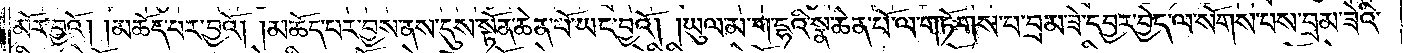མོར་བྱའོ། །མཆོད་པར་བྱའོ། །མཆོད་པར་བྱས་ནས་དུས་སྟོན་ཆེན་པོ་ཡང་བྱའོ། །ཡུལ་མ་ག་དྷའི་སྣ་ཆེན་པོ་ལ་གཏོགས་པ་བྲམ་ཟེ་དབྱར་བྱེད་ལ་སོགས་པས་བྲམ་ཟེའི་
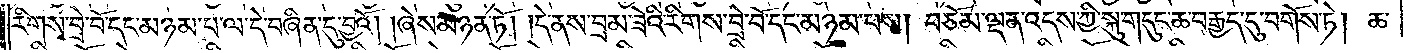རིགས་བྲེ་བོ་དང་མཉམ་པ་ལ་དེ་བཞིན་དུ་བྱའོ། །ཞེས་མཉན་ཏོ། །དེ་ནས་བྲམ་ཟེའི་རིགས་བྲེ་བོ་དང་མཉམ་པས། བཅོམ་ལྡན་འདས་ཀྱི་སྐུ་གདུང་ཆ་བརྒྱད་དུ་བགོས་ཏེ། ཆ་
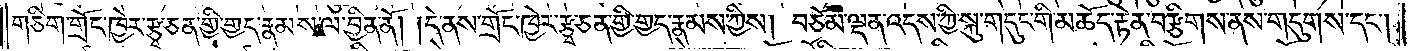གཅིག་གྲོང་ཁྱེར་རྩྭ་ཅན་གྱི་གྱད་རྣམས་ལ་བྱིན་ནོ། །དེ་ནས་གྲོང་ཁྱེར་རྩྭ་ཅན་གྱི་གྱད་རྣམས་ཀྱིས། བཅོམ་ལྡན་འདས་ཀྱི་སྐུ་གདུང་གི་མཆོད་རྟེན་བརྩིགས་ནས་གདུགས་དང༌།
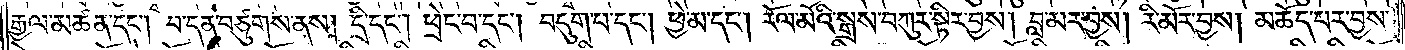རྒྱལ་མཚན་དང༌། བ་དན་བཙུགས་ནས། དྲི་དང༌། ཕྲེང་བ་དང༌། བདུག་པ་དང༌། ཕྱེ་མ་དང༌། རོལ་མོའི་སྒྲས་བཀུར་སྟིར་བྱས། བླ་མར་བྱས། རི་མོར་བྱས། མཆོད་པར་བྱས་
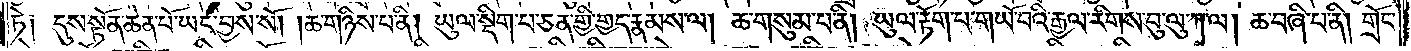ཏེ། དུས་སྟོན་ཆེན་པོ་ཡང་བྱས་སོ། །ཆ་གཉིས་པ་ནི། ཡུལ་སྡིག་པ་ཅན་གྱི་གྱད་རྣམས་ལ། ཆ་གསུམ་པ་ནི། ཡུལ་རྟོག་པ་གཡོ་བའི་རྒྱལ་རིགས་བུ་ལུ་ཀ་ལ། ཆ་བཞི་པ་ནི། གྲོང་
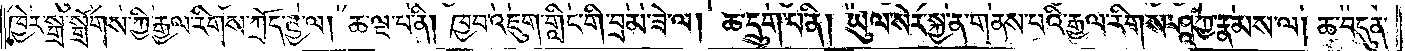ཁྱེར་སྒྲ་སྒྲོགས་ཀྱི་རྒྱལ་རིགས་ཀྲོད་ཊྱ་ལ། ཆ་ལྔ་པ་ནི། ཁྱབ་འཇུག་གླིང་གི་བྲམ་ཟེ་ལ། ཆ་དྲུག་པ་ནི། ཡུལ་སེར་སྐྱ་ན་གནས་པའི་རྒྱལ་རིགས་ཤཱཀྱ་རྣམས་ལ། ཆ་བདུན་
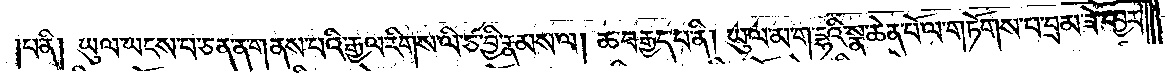།པ་ནི། ཡུལ་ཡངས་པ་ཅན་ན་གནས་པའི་རྒྱལ་རིགས་ལི་ཙ་བྱི་རྣམས་ལ། ཆ་བརྒྱད་པ་ནི། ཡུལ་མ་ག་དྷའི་སྣ་ཆེན་པོ་ལ་གཏོགས་པ་བྲམ་ཟེ་དབྱར་
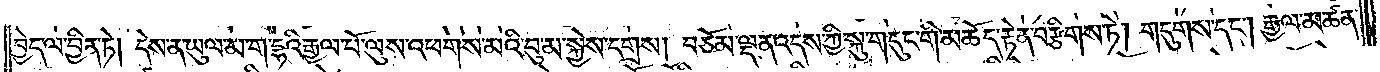བྱེད་ལ་བྱིན་ཏེ། དེས་ན་ཡུལ་མ་ག་དྷའི་རྒྱལ་པོ་ལུས་འཕགས་མའི་བུ་མ་སྐྱེས་དགྲས། བཅོམ་ལྡན་འདས་ཀྱི་སྐུ་གདུང་གི་མཆོད་རྟེན་བརྩིགས་ཏེ། གདུགས་དང༌། རྒྱལ་མཚན་
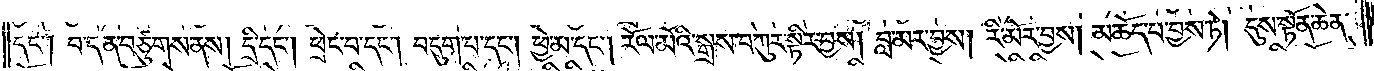དང༌། བ་དན་བཙུགས་ནས། དྲི་དང༌། ཕྲེང་བ་དང༌། བདུག་པ་དང༌། ཕྱེ་མ་དང༌། རོལ་མོའི་སྒྲས་བཀུར་སྟིར་བྱས། བླ་མར་བྱས། རི་མོར་བྱས། མཆོད་པ་བྱས་ཏེ། དུས་སྟོན་ཆེན་
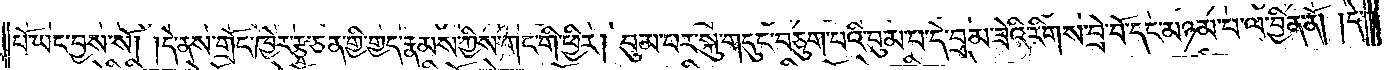པོ་ཡང་བྱས་སོ། །དེ་ནས་གྲོང་ཁྱེར་རྩྭ་ཅན་གྱི་གྱད་རྣམས་ཀྱིས་གང་གི་ཕྱིར། བུམ་པར་སྐུ་གདུང་བཅུག་པའི་བུམ་པ་དེ་བྲམ་ཟེའི་རིགས་བྲེ་བོ་དང་མཉམ་པ་ལ་བྱིན་ནོ། །དེ་
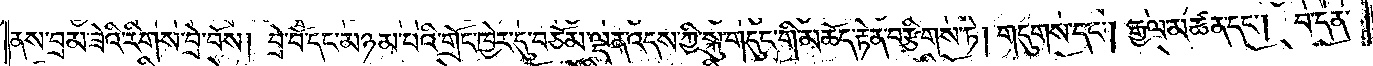ནས་བྲམ་ཟེའི་རིགས་བྲེ་བོས། བྲེ་བོ་དང་མཉམ་པའི་གྲོང་ཁྱེར་དུ་བཅོམ་ལྡན་འདས་ཀྱི་སྐུ་གདུང་གི་མཆོད་རྟེན་བརྩིགས་ཏེ། གདུགས་དང༌། རྒྱལ་མཚན་དང༌། བ་དན་
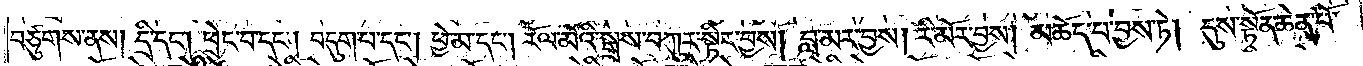བཙུགས་ནས། དྲི་དང༌། ཕྲེང་བ་དང༌། བདུག་པ་དང༌། ཕྱེ་མ་དང༌། རོལ་མོའི་སྒྲས་བཀུར་སྟིར་བྱས། བླ་མར་བྱས། རི་མོར་བྱས། མཆོད་པ་བྱས་ཏེ། དུས་སྟོན་ཆེན་པོ་
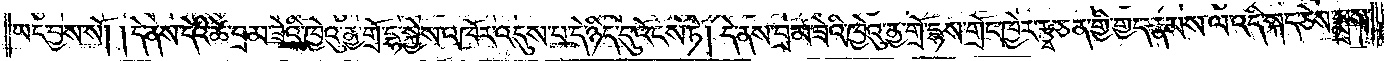ཡང་བྱས་སོ། །དེ་ནས་དེའི་ཚེ་བྲམ་ཟེའི་ཁྱེའུ་ནྱ་གྲོ་དྷ་སྐྱེས་འཁོར་འདུས་པ་དེ་ཉིད་དུ་འོངས་ཏེ། དེ་ནས་བྲམ་ཟེའི་ཁྱེའུ་ནྱ་གྲོ་དྷས་གྲོང་ཁྱེར་རྩྭ་ཅན་གྱི་གྱད་རྣམས་ལ་འདི་སྐད་ཅེས་སྨྲས་
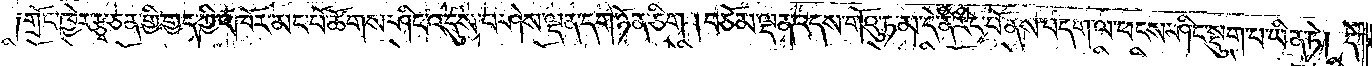གྲོང་ཁྱེར་རྩྭ་ཅན་གྱི་གྱད་ཀྱི་འཁོར་མང་པོ་ཚོགས་ཤིང་འདུས་པ་ཤེས་ལྡན་དག་ཉོན་ཅིག །བཅོམ་ལྡན་འདས་གོའུ་ཏ་མ་དེ་ནི་རིང་པོ་ནས་བདག་ལ་ཕངས་ཤིང་སྡུག་པ་ཡིན་ཏེ། དེ་
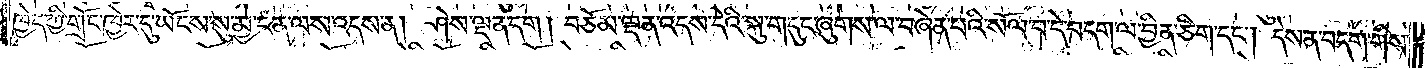ཁྱེད་ཀྱི་གྲོང་ཁྱེར་དུ་ཡོངས་སུ་མྱ་ངན་ལས་འདས་ན། ཤེས་ལྡན་དག །བཅོམ་ལྡན་འདས་དེའི་སྐུ་གདུང་ཞུགས་ལ་བཞེན་པའི་སོལ་བ་དེ་བདག་ལ་བྱིན་ཅིག་དང༌། དེས་ན་བདག་གིས་
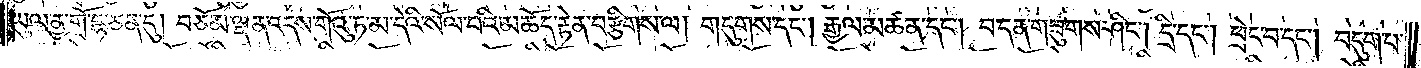ཡུལ་ནྱ་གྲོ་དྷ་ཅན་དུ། བཅོམ་ལྡན་འདས་གོའུ་ཏ་མ་དེའི་སོལ་བའི་མཆོད་རྟེན་བརྩིགས་ལ། གདུགས་དང༌། རྒྱལ་མཚན་དང༌། བ་དན་གཟུགས་ཤིང༌། དྲི་དང༌། ཕྲེང་བ་དང༌། བདུག་པ་
